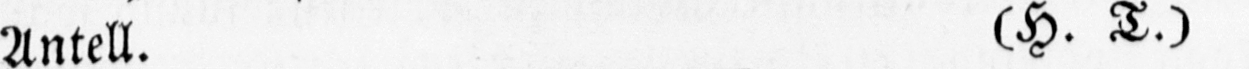Antell. (H. T.)
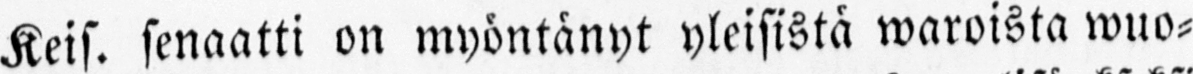Keis. senaatti on myöntänyt yleisistä waroista wuo-
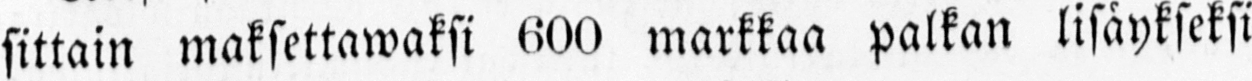sittain maksettawaksi 600 markkaa palkan lisäykseksi
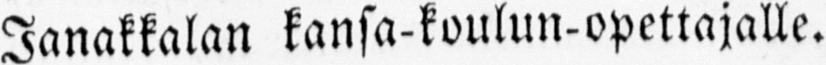Janakkalan kansa-koulun-opettajalle.
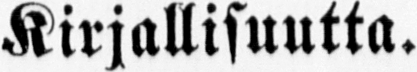Kirjallisuutta.
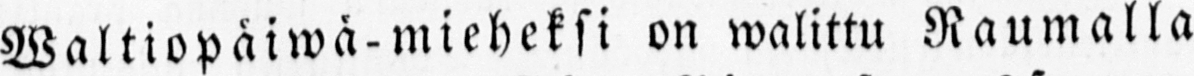Waltiopäiwä-mieheksi on walittu Raumalla
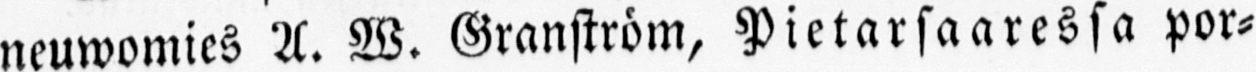neuwomies A. W. Granström, Pietarsaaressa por-
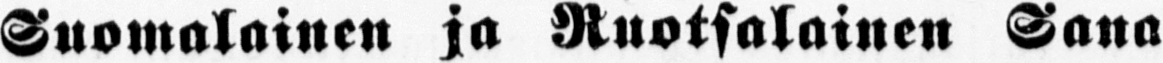Suomalainen ja Ruotsalainen Sana-
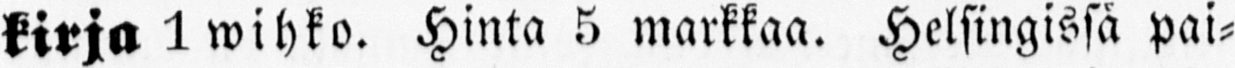kirja 1 wihko. Hinta 5 markkaa. Helsingissä pai-
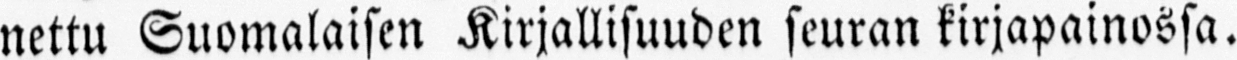nettu Suomalaisen Kirjallisuuden seuran kirjapainossa.
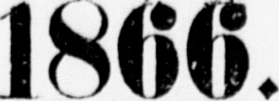1866.
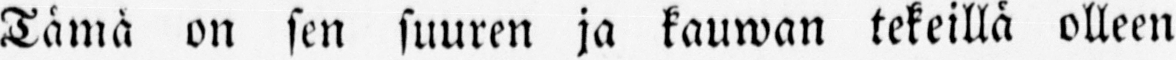Tämä on sen suuren ja kauwan tekeillä olleen
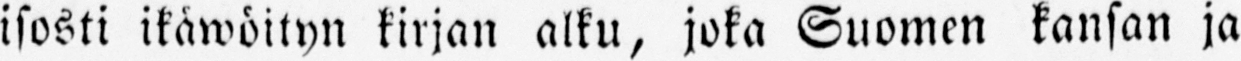isosti ikäwöityn kirjan alku, joka Suomen kansan ja
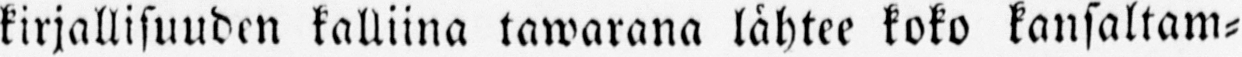kirjallisuuden kalliina tawarana lähtee koko kansaltam-
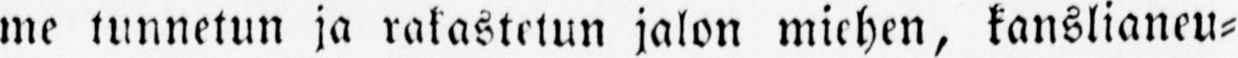me tunnetun ja rakastelun jalon miehen, kanslianeu-
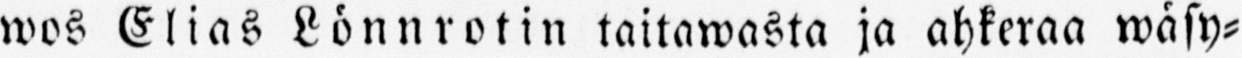wos Elias Lönnrotin taitawasta ja ahkeraa wäsy-
